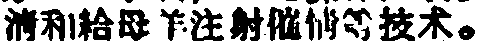清和給母养注射催情等技术。
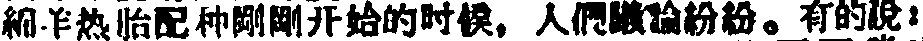綿羊热胎配种剛剛开始的时候，人們議論紛紛。有的說：
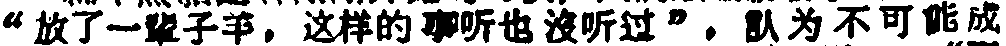“放了一輩子羊，这样的事听也沒听过”，认为不可能成
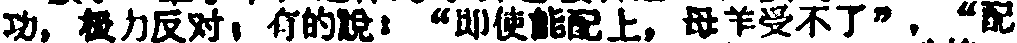功，极力反对；有的說：“即使能配上，母羊受不了”，“配
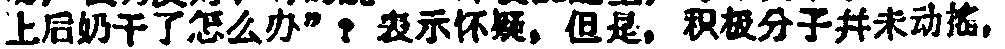上后奶干了怎么办”？表示怀疑，但是，积极分子并未动摇，
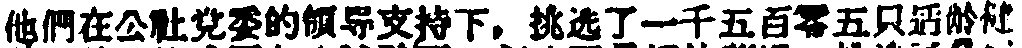他們在公社党委的領导支持下，挑选了一千五百零五只适龄健
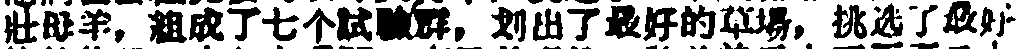壮母羊，組成了七个試驗群，划出了最好的草場，挑选了最好
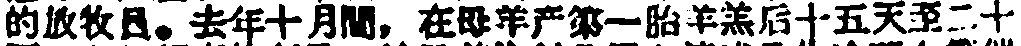的放牧員。去年十月間，在母羊产第一胎羊羔后十五天至二十
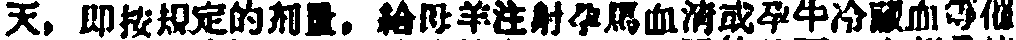天，即按規定的剂量，給母羊注射孕馬血清或孕牛冷藏血等催
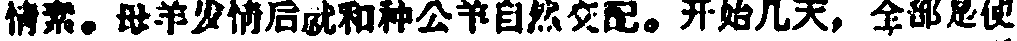情素。母羊发情后就和种公羊自然交配。开始几天，全部是使
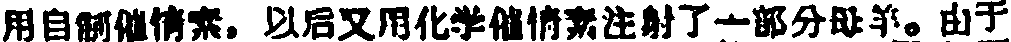用自制催情素，以后又用化学催情素注射了一部分母羊。由于
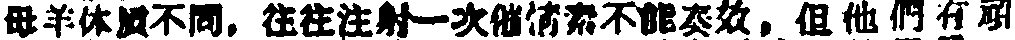母羊体质不同，往往注射一次催情素不能奏效，但他們有顽
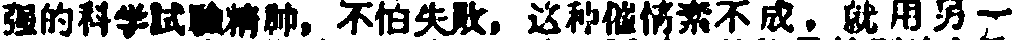强的科学試驗精神，不怕失败，这种催情素不成，就用另一
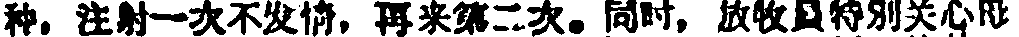种，注射一次不发情，再来第二次。同时，放牧員得別关心母
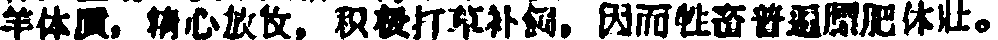羊体质，精心放牧，积极打草补飼，因而牲畜普遍膘肥体壮。
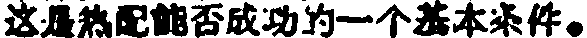这是热配能否成功的一个基本条件。
